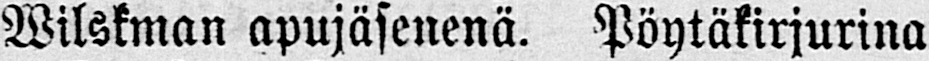Wilskman apujäsenenä. Pöytäkirjurina
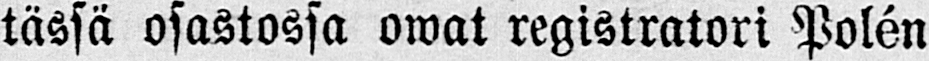tässä osastossa owat registratori Polén
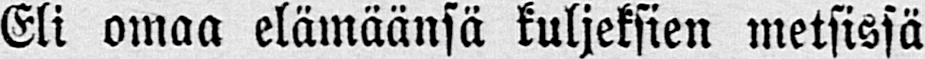Eli omaa elämäänsä kuljeksien metsissä
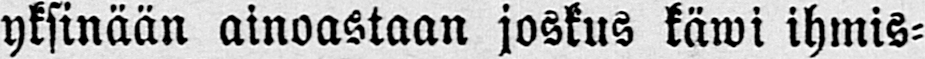yksinään ainoastaan joskus käwi ihmis-
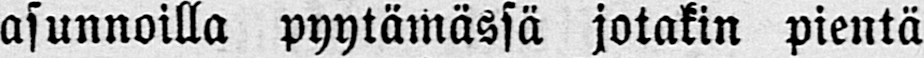asunnoilla pyytämässä jotakin pientä
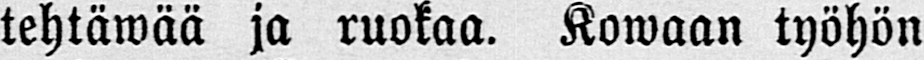tehtäwää ja ruokaa. Kowaan työhön
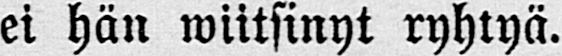ei hän wiitsinyt ryhtyä.
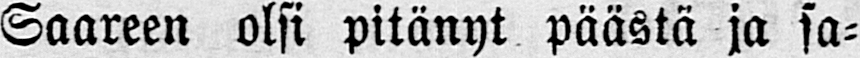Saareen olsi pitänyt päästä ja sa-
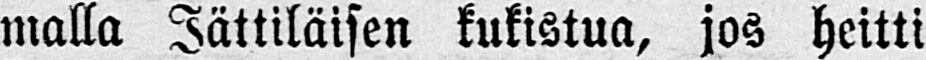malla Jättiläisen kukistua, jos heitti
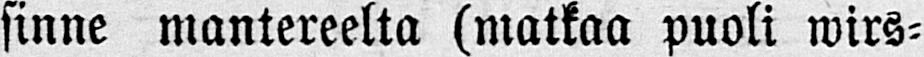sinne mantereelta (matkaa puoli wirs-
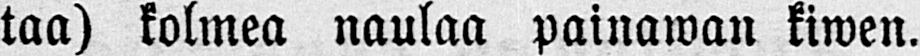taa) kolmea naulaa painawan kiwen.
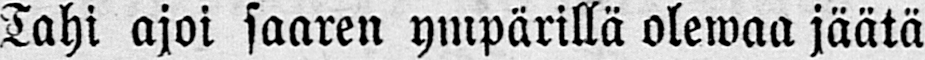Tahi ajoi saaren ympärillä olewaa jäätä
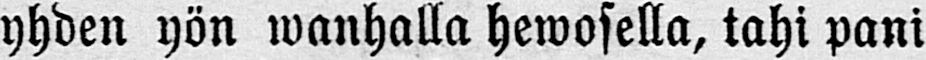yhden yön wanhalla hewosella, tahi pani
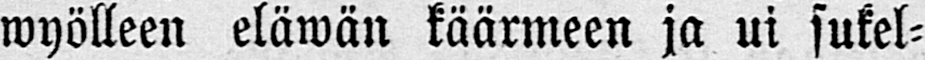wyölleen eläwän käärmeen ja ui sukel-
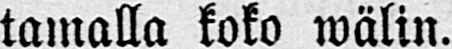tamalla koko wälin.
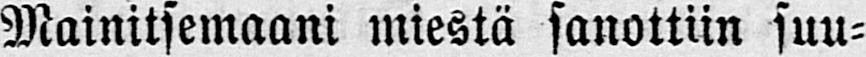Mainitsemaani miestä sanottiin suu-
